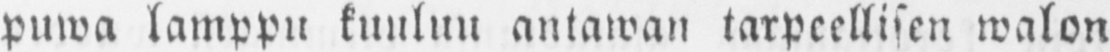puwa lamppu kuuluu antawan tarpeellisen walon
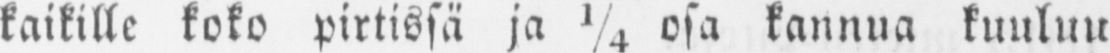kaikille koko pirtissä ja ¼ osa kannua kuuluu
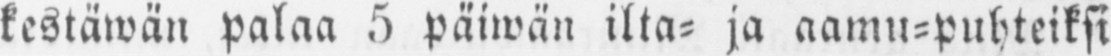kestäwän palaa 5 päiwän ilta- ja aamu-puhteiksi
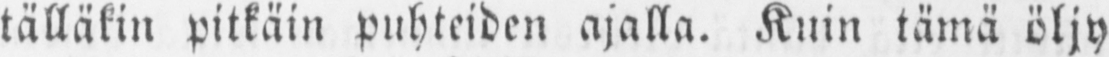tälläkin pitkäin puhteiden ajalla. Kuin tämä öljy
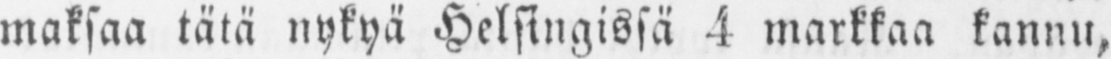maksaa tätä nykyä Helsingissä 4 markkaa kannu,
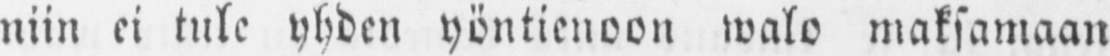niin ei tule yhden yöntienoon walo maksamaan
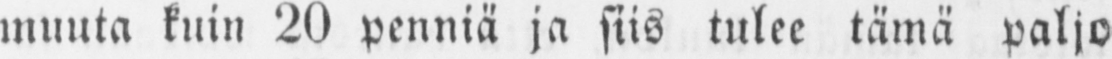muuta kuin 20 penniä ja siis tulee tämä paljo
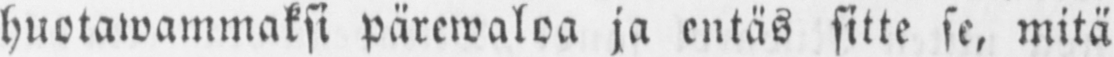huotawammaksi pärewaloa ja entäs sitte se, mitä
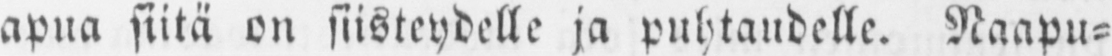apua siitä on siisteydelle ja puhtaudelle. Naapu-
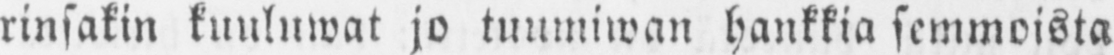rinsakin kuuluwat jo tuumiwan hankkia semmoista
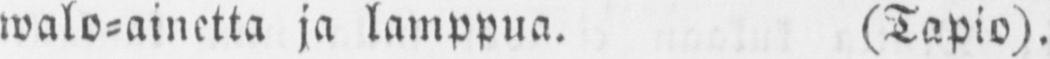walo-ainetta ja lamppua. (Tapio).
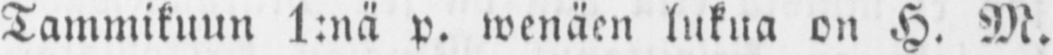Tammikuun 1:nä p. wenäen lukua on H. M.
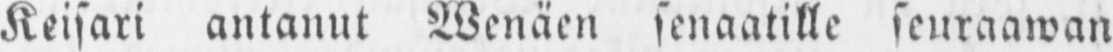Keisari antanut Wenäen senaatille seuraawan
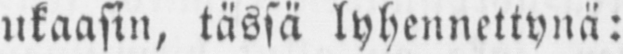ukaasin, tässä lyhennettynä:
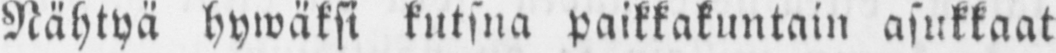Nähtyä hywäksi kutsna paikkakuntain asukkaat
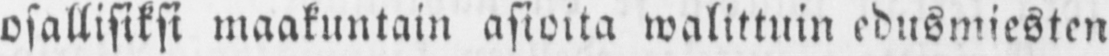osallisiksi maakuntain asioita walittuin edusmiesten
